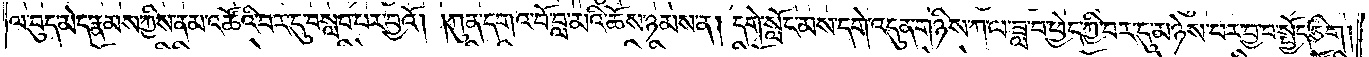ལ་བུད་མེད་རྣམས་ཀྱིས་ནམ་འཚོའི་བར་དུ་བསླབ་པར་བྱའོ། །ཀུན་དགའ་བོ་བླ་མའི་ཆོས་ཉམས་ན། དགེ་སློང་མས་དགེ་འདུན་གཉིས་ཀ་ལ་ཟླ་བ་ཕྱེད་ཀྱི་བར་དུ་མཉེས་པར་བྱ་བ་སྤྱོད་ཅིག།
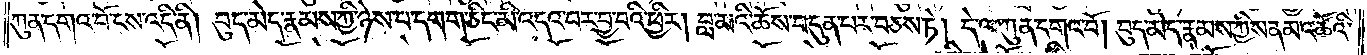ཀུན་དགའ་བོ་ངས་འདི་ནི། བུད་མེད་རྣམས་ཀྱི་ཉེས་པ་དགག་ཅིང་མི་འདའ་བར་བྱ་བའི་ཕྱིར། བླ་མའི་ཆོས་བདུན་པར་བཅས་ཏེ། དེ་ལ་ཀུན་དགའ་བོ། བུད་མེད་རྣམས་ཀྱིས་ནམ་འཚོའི་
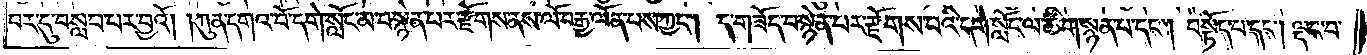བར་དུ་བསླབ་པར་བྱའོ། །ཀུན་དགའ་བོ་དགེ་སློང་མ་བསྙེན་པར་རྫོགས་ནས་ལོ་བརྒྱ་ལོན་པས་ཀྱང༌། ད་གཟོད་བསྙེན་པར་རྫོགས་པའི་དགེ་སློང་ལ་ཚིག་སྙན་པ་དང༌། བསྟོད་པ་དང༌། ལྡང་བ་
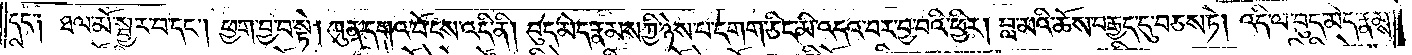དང༌། ཐལ་མོ་སྦྱར་བ་དང༌། ཕྱག་བྱ་བ་སྟེ། ཀུན་དགའ་བོ་ངས་འདི་ནི། བུད་མེད་རྣམས་ཀྱི་ཉེས་པ་དགག་ཅིང་མི་འདའ་བར་བྱ་བའི་ཕྱིར། བླ་མའི་ཆོས་བརྒྱད་དུ་བཅས་ཏེ། འདི་ལ་བུད་མེད་རྣམས་
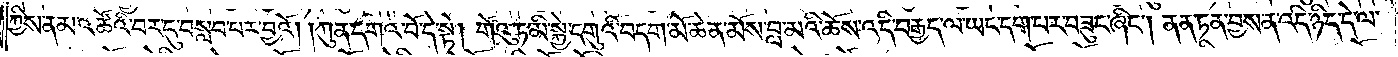ཀྱིས་ནམ་འཚོའི་བར་དུ་བསླབ་པར་བྱའོ། །ཀུན་དགའ་བོ་དེ་སྟེ། གོའུ་ཏ་མི་སྐྱེ་དགུའི་བདག་མོ་ཆེན་མོས་བླ་མའི་ཆོས་འདི་བརྒྱད་ལ་ཡང་དག་པར་བཟུང་ཞིང༌། ནན་ཏན་བྱས་ན་འདི་ཉིད་དེ་ལ་
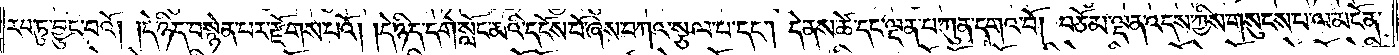རབ་ཏུ་བྱུང་བའོ། །དེ་ཉིད་བསྙེན་པར་རྫོགས་པའོ། །དེ་ཉིད་དགེ་སློང་མའི་དངོས་པོ་ཞེས་བཀའ་སྩལ་པ་དང༌། དེ་ནས་ཚེ་དང་ལྡན་པ་ཀུན་དགའ་བོ། བཅོམ་ལྡན་འདས་ཀྱིས་གསུངས་པ་ལ་མངོན་
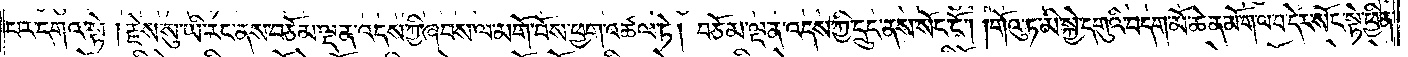པར་དགའ་སྟེ། རྗེས་སུ་ཡི་རང་ནས་བཅོམ་ལྡན་འདས་ཀྱི་ཞབས་ལ་མགོ་བོས་ཕྱག་འཚལ་ཏེ། བཅོམ་ལྡན་འདས་ཀྱི་དྲུང་ནས་སོང་ངོ༌། །གོའུ་ཏ་མི་སྐྱེ་དགུའི་བདག་མོ་ཆེན་མོ་ག་ལ་བ་དེར་སོང་སྟེ་ཕྱིན་
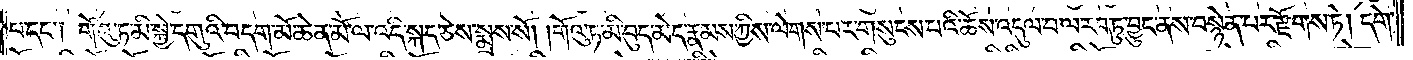པ་དང༌། གོའུ་ཏ་མི་སྐྱེ་དགུའི་བདག་མོ་ཆེན་མོ་ལ་འདི་སྐད་ཅེས་སྨྲས་སོ། །གོའུ་ཏ་མི་བུད་མེད་རྣམས་ཀྱིས་ལེགས་པར་གསུངས་པའི་ཆོས་འདུལ་བ་ལ་རབ་ཏུ་བྱུང་ནས་བསྙེན་པར་རྫོགས་ཏེ། དགེ་
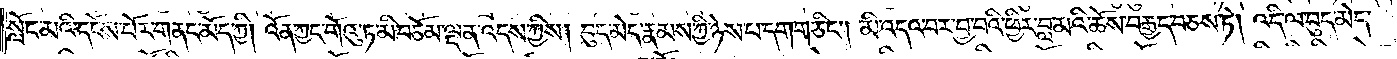སློང་མའི་དངོས་པོར་གནང་མོད་ཀྱི། འོན་ཀྱང་གོའུ་ཏ་མི་བཅོམ་ལྡན་འདས་ཀྱིས། བུད་མེད་རྣམས་ཀྱི་ཉེས་པ་དགག་ཅིང༌། མི་འདའ་བར་བྱ་བའི་ཕྱིར་བླ་མའི་ཆོས་བརྒྱད་བཅས་ཏེ། འདི་ལ་བུད་མེད་
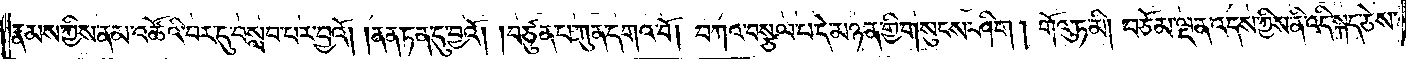རྣམས་ཀྱིས་ནམ་འཚོའི་བར་དུ་བསླབ་པར་བྱའོ། །ནན་ཏན་དུ་བྱའོ། །བཙུན་པ་ཀུན་དགའ་བོ། བཀའ་བསྩལ་པ་དེ་མཉན་གྱི་གསུངས་ཤིག །གོའུ་ཏ་མི། བཅོམ་ལྡན་འདས་ཀྱིས་ནི་འདི་སྐད་ཅེས་
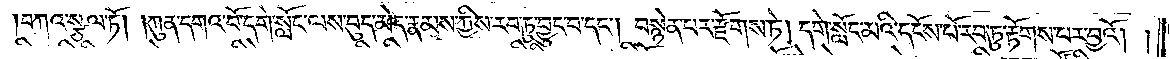བཀའ་སྩལ་ཏོ། །ཀུན་དགའ་བོ་དགེ་སློང་ལས་བུད་མེད་རྣམས་ཀྱིས་རབ་ཏུ་བྱུང་བ་དང༌། བསྙེན་པར་རྫོགས་ཏེ། དགེ་སློང་མའི་དངོས་པོ་རབ་ཏུ་རྟོགས་པར་བྱའོ། །
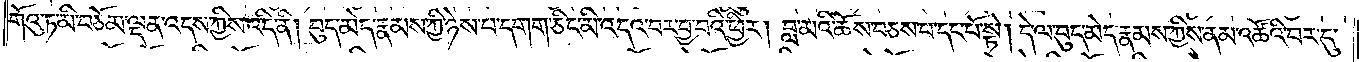གོའུ་ཏ་མི་བཅོམ་ལྡན་འདས་ཀྱིས་འདི་ནི། བུད་མེད་རྣམས་ཀྱི་ཉེས་པ་དགག་ཅིང་མི་འདའ་བར་བྱ་བའི་ཕྱིར། བླ་མའི་ཆོས་བཅས་པ་དང་པོ་སྟེ། དེ་ལ་བུད་མེད་རྣམས་ཀྱིས་ནམ་འཚོའི་བར་དུ་
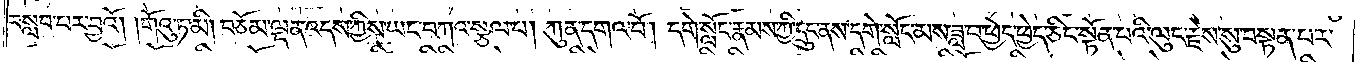བསླབ་པར་བྱའོ། །གོའུ་ཏ་མི། བཅོམ་ལྡན་འདས་ཀྱིས་ཡང་བཀའ་སྩལ་པ། ཀུན་དགའ་བོ། དགེ་སློང་རྣམས་ཀྱི་དྲུང་ནས་དགེ་སློང་མས་ཟླ་བ་ཕྱེད་ཕྱེད་ཅིང་སྟོན་པའི་ལུང་རྗེས་སུ་བསྟན་པར་
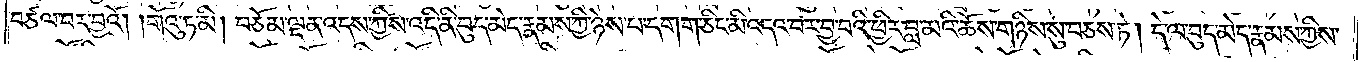བཙལ་བར་བྱའོ། །གོའུ་ཏ་མི། བཅོམ་ལྡན་འདས་ཀྱིས་འདི་ནི་བུད་མེད་རྣམས་ཀྱི་ཉེས་པ་དགག་ཅིང་མི་འདའ་བར་བྱ་བའི་ཕྱིར་བླ་མའི་ཆོས་གཉིས་སུ་བཅས་ཏེ། དེ་ལ་བུད་མེད་རྣམས་ཀྱིས་
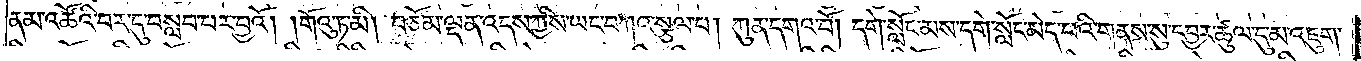ནམ་འཚོའི་བར་དུ་བསླབ་པར་བྱའོ། །གོའུ་ཏ་མི། བཅོམ་ལྡན་འདས་ཀྱིས་ཡང་བཀའ་སྩལ་པ། ཀུན་དགའ་བོ། དགེ་སློང་མས་དགེ་སློང་མེད་པའི་གནས་སུ་དབྱར་ཚུལ་དུ་མ་འཇུག་
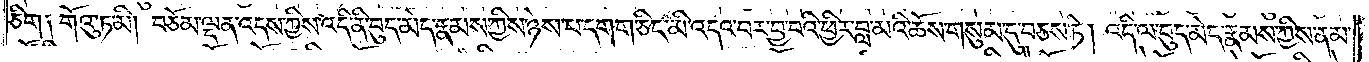ཅིག༑ གོའུ་ཏ་མི། བཅོམ་ལྡན་འདས་ཀྱིས་འདི་ནི་བུད་མེད་རྣམས་ཀྱིས་ཉེས་པ་དགག་ཅིང་མི་འདའ་བར་བྱ་བའི་ཕྱིར་བླ་མའི་ཆོས་གསུམ་དུ་བཅས་ཏེ། འདི་ལ་བུད་མེད་རྣམས་ཀྱིས་ནམ་
